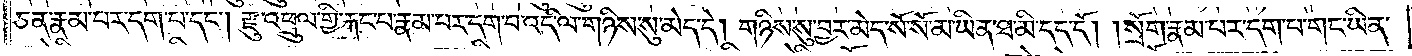ཅན་རྣམ་པར་དག་པ་དང༌། རྫུ་འཕྲུལ་གྱི་རྐང་པ་རྣམ་པར་དག་པ་འདི་ལ་གཉིས་སུ་མེད་དེ། གཉིས་སུ་བྱར་མེད་སོ་སོ་མ་ཡིན་ཐ་མི་དད་དོ། །སྲོག་རྣམ་པར་དག་པ་གང་ཡིན་
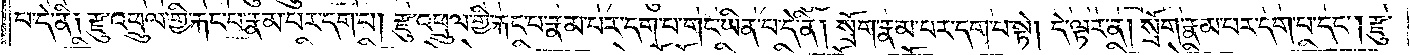པ་དེ་ནི། རྫུ་འཕྲུལ་གྱི་རྐང་པ་རྣམ་པར་དག་པ། རྫུ་འཕྲུལ་གྱི་རྐང་པ་རྣམ་པར་དག་པ་གང་ཡིན་པ་དེ་ནི། སྲོག་རྣམ་པར་དག་པ་སྟེ། དེ་ལྟར་ན། སྲོག་རྣམ་པར་དག་པ་དང༌། རྫུ་
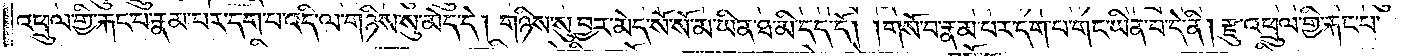འཕྲུལ་གྱི་རྐང་པ་རྣམ་པར་དག་པ་འདི་ལ་གཉིས་སུ་མེད་དེ། གཉིས་སུ་བྱར་མེད་སོ་སོ་མ་ཡིན་ཐ་མི་དད་དོ། །གསོ་བ་རྣམ་པར་དག་པ་གང་ཡིན་པ་དེ་ནི། རྫུ་འཕྲུལ་གྱི་རྐང་པ་
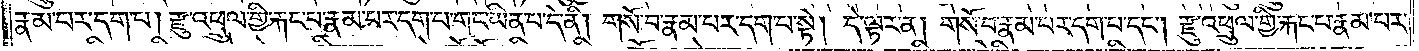རྣམ་པར་དག་པ། རྫུ་འཕྲུལ་གྱི་རྐང་པ་རྣམ་པར་དག་པ་གང་ཡིན་པ་དེ་ནི། གསོ་བ་རྣམ་པར་དག་པ་སྟེ། དེ་ལྟར་ན། གསོ་བ་རྣམ་པར་དག་པ་དང༌། རྫུ་འཕྲུལ་གྱི་རྐང་པ་རྣམ་པར་
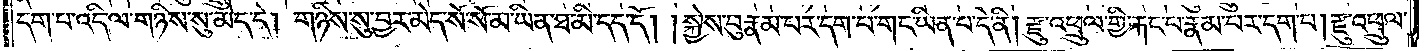དག་པ་འདི་ལ་གཉིས་སུ་མེད་དེ། གཉིས་སུ་བྱར་མེད་སོ་སོ་མ་ཡིན་ཐ་མི་དད་དོ། །སྐྱེས་བུ་རྣམ་པར་དག་པ་གང་ཡིན་པ་དེ་ནི། རྫུ་འཕྲུལ་གྱི་རྐང་པ་རྣམ་པར་དག་པ། རྫུ་འཕྲུལ་
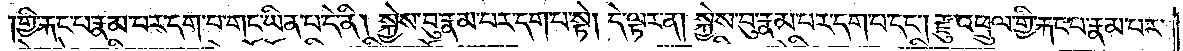གྱི་རྐང་པ་རྣམ་པར་དག་པ་གང་ཡིན་པ་དེ་ནི། སྐྱེས་བུ་རྣམ་པར་དག་པ་སྟེ། དེ་ལྟར་ན། སྐྱེས་བུ་རྣམ་པར་དག་པ་དང༌། རྫུ་འཕྲུལ་གྱི་རྐང་པ་རྣམ་པར་
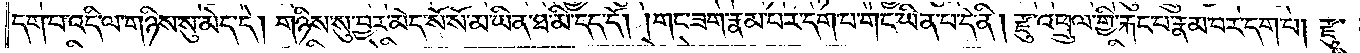དག་པ་འདི་ལ་གཉིས་སུ་མེད་དེ། གཉིས་སུ་བྱར་མེད་སོ་སོ་མ་ཡིན་ཐ་མི་དད་དོ། །གང་ཟག་རྣམ་པར་དག་པ་གང་ཡིན་པ་དེ་ནི། རྫུ་འཕྲུལ་གྱི་རྐང་པ་རྣམ་པར་དག་པ། རྫུ་
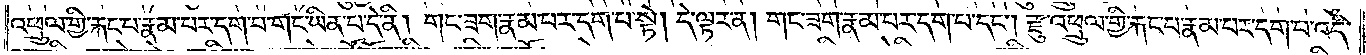འཕྲུལ་གྱི་རྐང་པ་རྣམ་པར་དག་པ་གང་ཡིན་པ་དེ་ནི། གང་ཟག་རྣམ་པར་དག་པ་སྟེ། དེ་ལྟར་ན། གང་ཟག་རྣམ་པར་དག་པ་དང༌། རྫུ་འཕྲུལ་གྱི་རྐང་པ་རྣམ་པར་དག་པ་འདི་
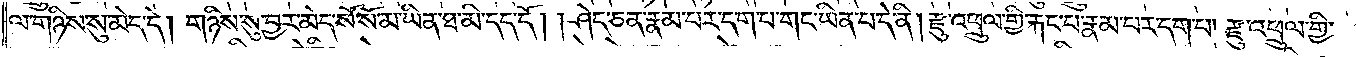ལ་གཉིས་སུ་མེད་དེ། གཉིས་སུ་བྱར་མེད་སོ་སོ་མ་ཡིན་ཐ་མི་དད་དོ། །ཤེད་ཅན་རྣམ་པར་དག་པ་གང་ཡིན་པ་དེ་ནི། རྫུ་འཕྲུལ་གྱི་རྐང་པ་རྣམ་པར་དག་པ། རྫུ་འཕྲུལ་གྱི་
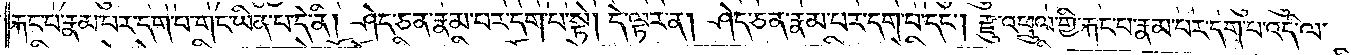རྐང་པ་རྣམ་པར་དག་པ་གང་ཡིན་པ་དེ་ནི། ཤེད་ཅན་རྣམ་པར་དག་པ་སྟེ། དེ་ལྟར་ན། ཤེད་ཅན་རྣམ་པར་དག་པ་དང༌། རྫུ་འཕྲུལ་གྱི་རྐང་པ་རྣམ་པར་དག་པ་འདི་ལ་
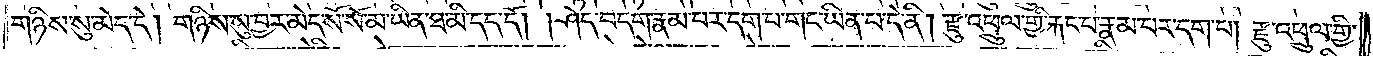གཉིས་སུ་མེད་དེ། གཉིས་སུ་བྱར་མེད་སོ་སོ་མ་ཡིན་ཐ་མི་དད་དོ། །ཤེད་བདག་རྣམ་པར་དག་པ་གང་ཡིན་པ་དེ་ནི། རྫུ་འཕྲུལ་གྱི་རྐང་པ་རྣམ་པར་དག་པ། རྫུ་འཕྲུལ་གྱི་
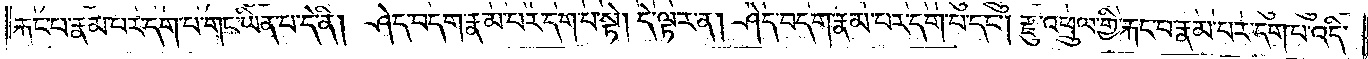རྐང་པ་རྣམ་པར་དག་པ་གང་ཡིན་པ་དེ་ནི། ཤེད་བདག་རྣམ་པར་དག་པ་སྟེ། དེ་ལྟར་ན། ཤེད་བདག་རྣམ་པར་དག་པ་དང༌། རྫུ་འཕྲུལ་གྱི་རྐང་པ་རྣམ་པར་དག་པ་འདི་
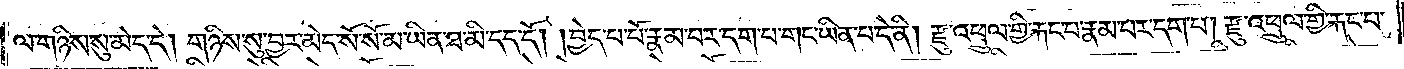ལ་གཉིས་སུ་མེད་དེ། གཉིས་སུ་བྱར་མེད་སོ་སོ་མ་ཡིན་ཐ་མི་དད་དོ། །བྱེད་པ་པོ་རྣམ་པར་དག་པར་གང་ཡིན་པ་དེ་ནི། རྫུ་འཕྲུལ་གྱི་རྐང་པ་རྣམ་པར་དག་པ། རྫུ་འཕྲུལ་གྱི་རྐང་པ་
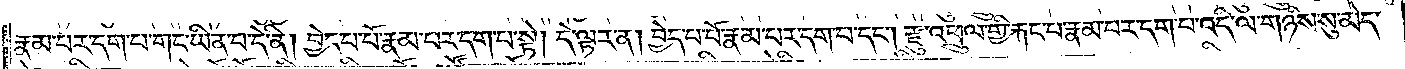རྣམ་པར་དག་གང་ཡིན་པ་དེ་ནི། བྱེད་པ་པོ་རྣམ་པར་དག་པ་སྟེ། དེ་ལྟར་ན། བྱེད་པ་པོ་རྣམ་པར་དག་པ་དང༌། རྫུ་འཕྲུལ་གྱི་རྐང་པ་རྣམ་པར་དག་པ་འདི་ལ་གཉིས་སུ་མེད་
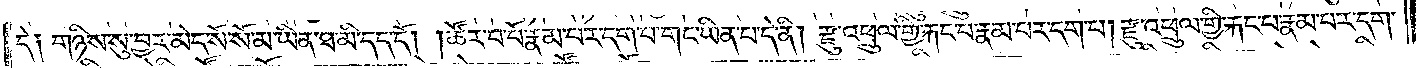དེ། གཉིས་སུ་བྱར་མེད་སོ་སོ་མ་ཡིན་ཐ་མི་དད་དོ། །ཚོར་བ་པོ་རྣམ་པར་དག་པ་གང་ཡིན་པ་དེ་ནི། རྫུ་འཕྲུལ་གྱི་རྐང་པ་རྣམ་པར་དག་པ། རྫུ་འཕྲུལ་གྱི་རྐང་པ་རྣམ་པར་དག་
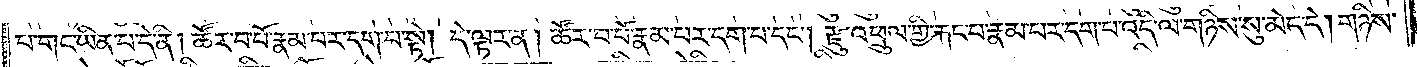པ་གང་ཡིན་པ་དེ་ནི། ཚོར་བ་པོ་རྣམ་པར་དག་པ་སྟེ། དེ་ལྟར་ན། ཚོར་བ་པོ་རྣམ་པར་དག་པ་དང༌། རྫུ་འཕྲུལ་གྱི་རྐང་པ་རྣམ་པར་དག་པ་འདི་ལ་གཉིས་སུ་མེད་དེ། གཉིས་
